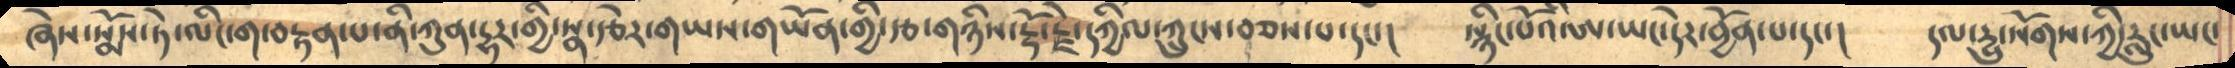ཞེས་སྨོས་ཏེ་ལིང་ག་བརྟན་པ་ནི་ཀུན་དྷར་གྱི་སྣ་རྩེར་གཡས་གཡོན་གྱི་རྩ་གཉིས་རྡོ་རྗེ་དཀྱིལ་ཀྲུངས་བཅས་པ་དང་།    སྙིང་པོའི་ཨ་ཡང་དེར་བྱོན་པ་དང་།   དལ་དྱུ་སོགས་ཀྱི་རླུང་ཡང་
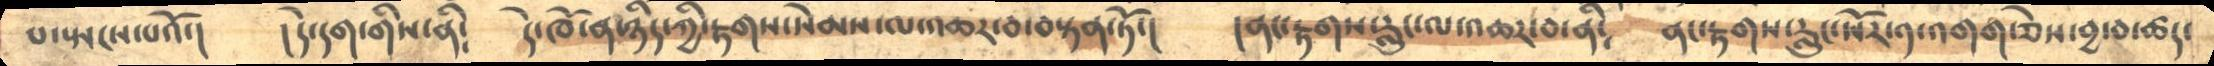པ་སྤངས་པའོ་།    །དེ་དག་གིས་ནི༴    དེ་ཁོ་ན་ཉིད་ཀྱི་རྟགས་སེམས་ལ་འཆར་བ་བསྟན་ཏོ་།    །ནང་རྟགས་རླུང་ལ་འཆར་བ་ནི༴     ནང་རྟགས་རླུང་སོར་༡་འགག་ཅེས་བྱ་བ་ཚད་
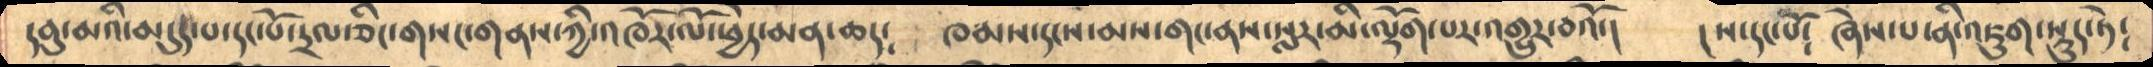དབུ་མའི་མདུད་པ་དང་པོ་དྲལ་ཅིང་གསང་གནས་ཀྱི་འཁོར་ལོ་ཕྱེད་མན་ཆད༴    ཁམས་དངས་མས་གང་ནས་སླར་མི་ལྡོག་པར་འགྱུར་བའོ་།   །ས་དང་པོ༴   ཞེས་པ་ནི་འཇུག་སྡུད་ཏེ༴
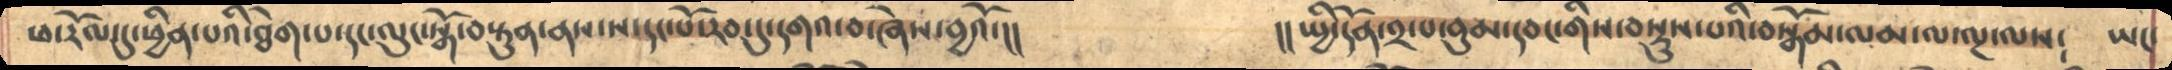ཕ་རོལ་དུ་ཕྱིན་པའི་ཐེག་པ་དང་ལུང་སྒོ་བསྟུན་ནས་ས་དང་པོ་རབ་དུ་དགའ་བ་ཞེས་བྱའོ་།།            །། སྤྱི་དོན་༢་པ་བུམ་དབང་གིས་བསྡུས་པའི་བསྒོམ་ལམ་ལ་ལྔ་ལས༴    ཡང་
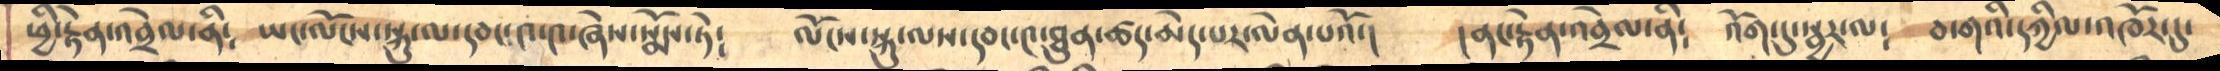ཕྱི་རྟེན་འབྲེལ་ནི༴  ཡང་ལོངས་སྐུ་ལ་དབང་༤་༤་ཞེས་སྨོས་ཏེ༴   ལོངས་སྐུ་ལས་དབང་༤་ཐུན་ཚད་མེད་པར་ལེན་པའོ་།   །ནང་རྟེན་འབྲེལ་ནི༴  འོག་དུ་སྦྱར་ལ༴  བདགའི་དཀྱིལ་འཁོར་དུ་
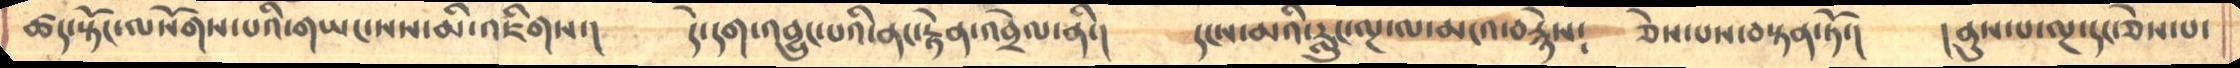ཚད་སྟོང་ལསོགས་པའི་གཡང་སས་མི་འཇིགས་།    དེ་དག་འབྱུང་པའི་ནང་རྟེན་འབྲེལ་ནི་།   དངས་མའི་རླུང་ལྔ་ལ་མངའ་བརྙེས༴  ཅེས་པས་བསྟན་ཏོ་།    །ནུས་པ་ལྔ་དང་ཅེས་པ་
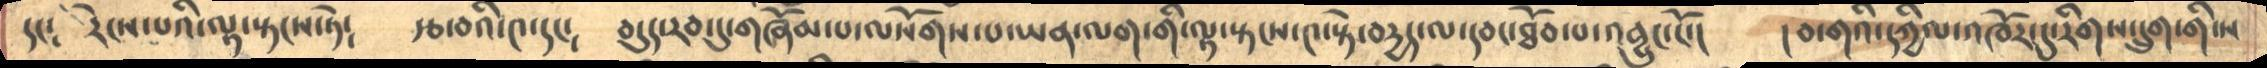དང༴   རེངས་པའི་ལྟ་སྟངས་ཏེ༴   རྩ་བའི་༤་དང༴  བདུད་རབ་དུ་གཞོམ་པ་ལསོགས་པ་ཡན་ལག་གི་ལྟ་སྟངས་༤་སྟེ་བདྱད་ལ་དབང་ཐོབ་པ་འབྱུང་ངོ་།   །བདགའི་དཀྱིལ་འཁོར་དུ་རིགས་དྲུག་གི་ས
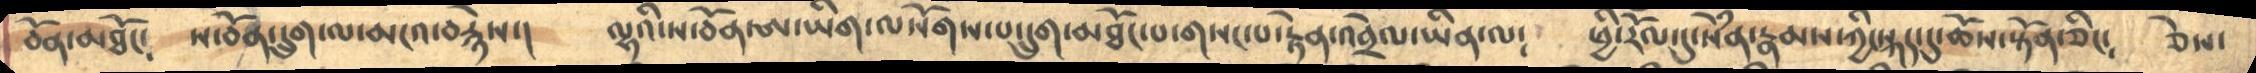བོན་མཐོང༴   ས་བོན་དྲུག་ལ་མངའ་བརྙེས་།    ལྷའི་ས་བོན་ཨ་ཡིག་ལསོགས་པ་དྲུག་མཐོང་པ་གསང་པ་རྟེན་འབྲེལ་ཡིན་ལ༴  ཕྱི་རོལ་དུ་སེཾན་རྣམས་ཀྱི་སྐད་དུ་ཆོས་སྟོན་ཅིང༴  ཅེས་
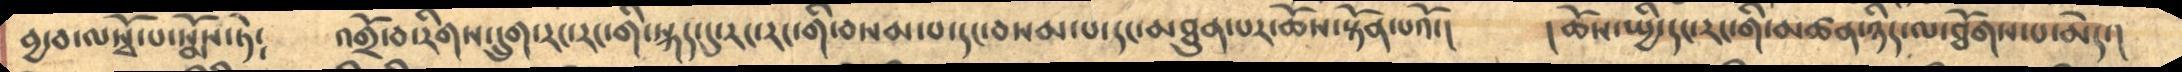བྱ་བ་ལསྭོ་པ་སྨོས་ཏེ༴    འགྲོ་བ་རིགས་དྲུག་རང་རང་གི་སྐད་དུ་རང་རང་གི་བསམ་པ་དང་བསམ་པ་དང་མཐུན་པར་ཆོས་སྟོན་པའོ་།   །ཆོས་སྤྱི་དང་རང་གི་མཚན་ཉིད་ལ་ཐོགས་པ་མེད་།
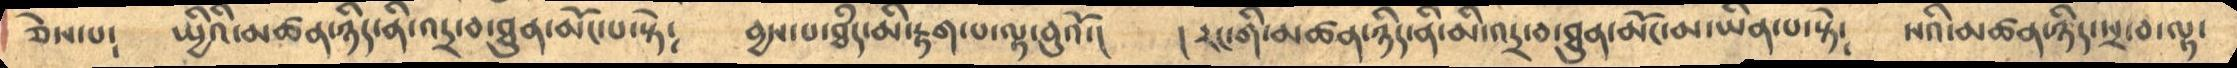ཅེས་པ༴   སྤྱིའི་མཚན་ཉིད་ནི་འདྲ་བ་ཐུན་མོང་པ་སྟེ༴    བྱས་པ་ཐཾད་མི་རྟག་པ་ལྟ་བུའོ་།   ། རང་གི་མཚན་ཉིད་ནི་མི་འདྲ་བ་ཐུན་མོང་མ་ཡིན་པ་སྟེ༴  སའི་མཚན་ཉིད་སྲ་བ་ལྟ་
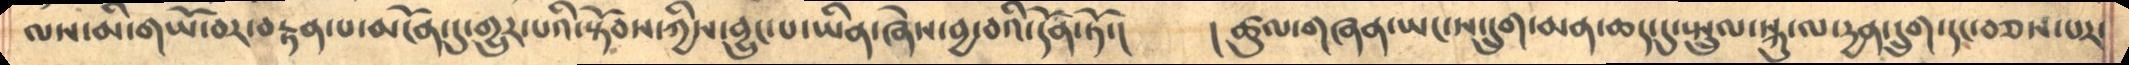ལས་མི་གཡོ་བར་བརྟན་པ་མངོན་དུ་གྱུར་པའི་སྟོབས་ཀྱིས་བྱུང་པ་ཡིན་ཞེས་བྱ་བའི་དོན་ཏོ་།     ། ཚུལ་གཞན་ཡང་ས་དྲུག་མན་ཆད་དུ་སྤྲུལ་སྐུ་ལ་དྱན་དྲུག་དང་བཅས་པར་
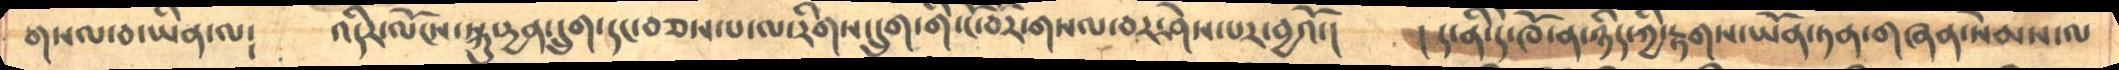གསལ་བ་ཡིན་ལ༴   འདིར་ལོངས་སྐུ་དྱན་དྲུག་དང་བཅས་པ་ལ་རིགས་དྲུག་གི་ངོ་བོར་གསལ་བར་ཤེས་པར་བྱའོ་།     །ད་ནི་དེ་ཁོ་ན་ཉིད་ཀྱི་རྟགས་ཡོན་ཏན་གཞན་སེམས་ལ
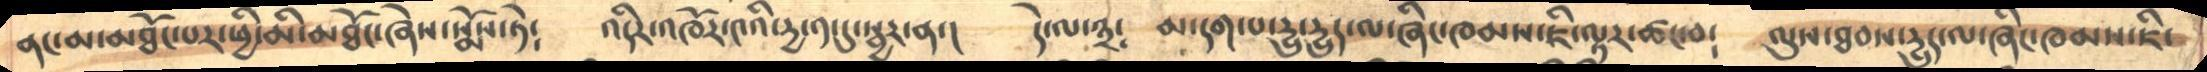ནང་མ་མཐོང་པར་ཕྱི་མི་མཐོང་ཞེས་སྨོས་ཏེ༴   འདིར་འཁོར་༤འི་དྱ་༡་དུ་སྦྱར་ན་།   དེ་ལ་༣༴   མ་དག་པ་དྱུ་དྱུད་ལ་ཞིང་ཁམས་ཇི་ལྟར་ཚང་བ༴   ལུས་ཐབས་དྱུད་ལ་ཞིང་ཁམས་ཇི་
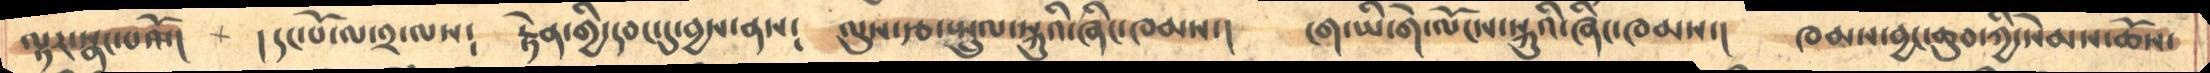ལྟར་སྣང་པའོ་།    །དང་པོ་ལ་༢་ལས༴   རྟེན་གྱི་དབང་དུ་བྱས་ནས༴  ལུས་རྩ་སྤྲུལ་སྐུའི་ཞིང་ཁམས་།   ངག་ཡི་གེ་ལོངས་སྐུའི་ཞིང་ཁམས་།   ཁམས་བྱང་ཆུབ་ཀྱི་སེམས་ཆོས་
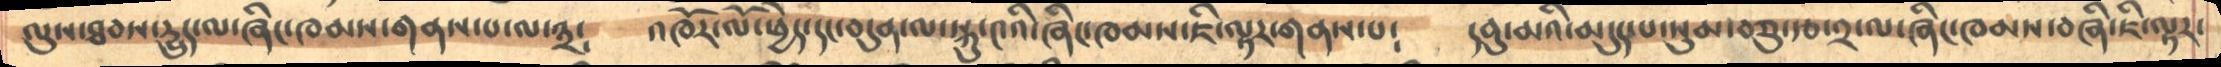ལུས་ཐབས་དྱུད་ལ་ཞིང་ཁམས་གནས་པ་ལ་༣༴   འཁོར་ལོ་ཕྱེད་དང་བདུན་ལ་སྐུ་༤འི་ཞིང་ཁམས་ཇི་ལྟར་གནས་པ༴   དབུ་མའི་མདུད་པ་སུམ་བཅུ་རྩ་༢་ལ་ཞིང་ཁམས་བཞི་ཇི་ལྟར་
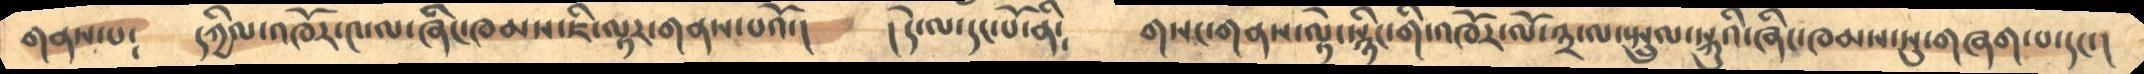གནས་པ༴     དཀྱིལ་འཁོར་༤་ལ་ཞིང་ཁམས་ཇི་ལྟར་གནས་པའོ་།    །དེ་ལ་དང་པོ་ནི༴   གསང་གནས་ལྟེ་སྙིང་གི་འཁོར་ལོ་༣་ལ་སྤྲུལ་སྐུའི་ཞིང་ཁམས་སུ་གཞག་པ་དང་།
